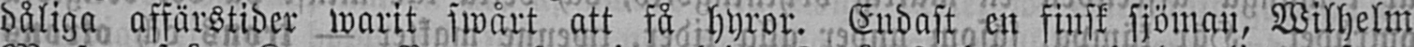dåliga affärstider warit swårt att få hyror. Endast en finsk sjöman, Wilhelm
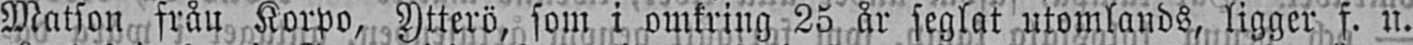Matson från Korpo, Ytterö, som i omkring 25 år seglat utomlands, ligger f. n.
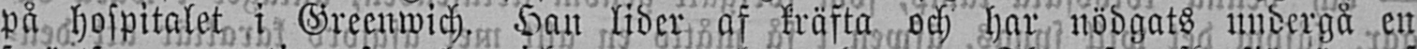på hospitalet i Greenwich. Han lider af kräfta och har nödgats undergå en
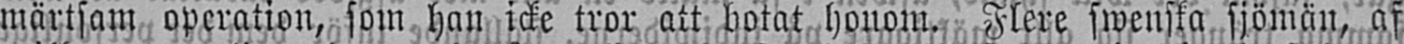smärtsam operation, som han icke tror att botat honom. Flere swenska sjömän, af
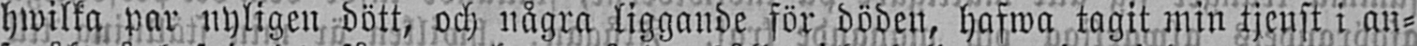hwilka par nyligen dött, och några liggande för döden, hafwa tagit min tjenst i an-
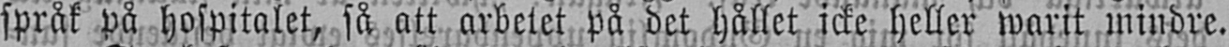språk på hospitalet, så att arbetet på det hållet icke heller warit mindre.
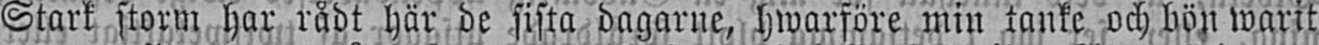Stark storm har rådt här de sista dagarne, hwarföre min tanke och bön warit
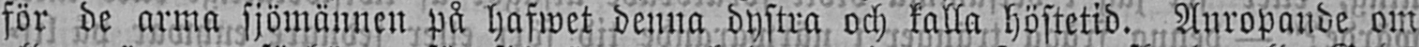för de arma sjömännen på hafwet denna dystra och kalla höstetid. Anropande om
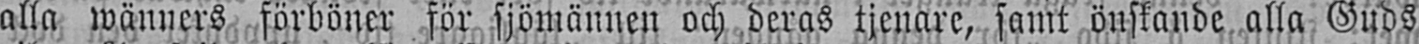alla wänners förböner för sjömännen och deras tjenare, samt önskande alla Guds
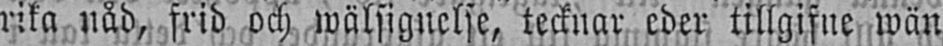rika nåd, frid och wälsignelse, tecknar eder tillgifne wän
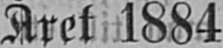Året 1884
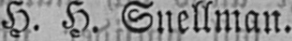H. H. Snellman.
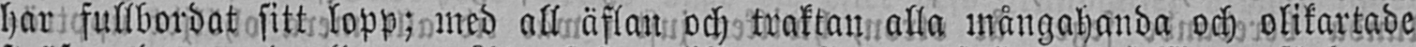har fullbordat sitt lopp; med all äflan och traktan alla mångahanda och olikartade
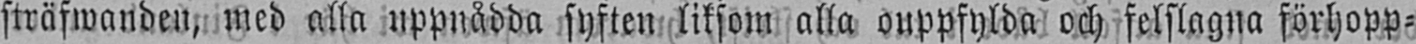sträfwanden, med alla uppnådda syften liksom alla ouppfylda och felslagna förhopp-
